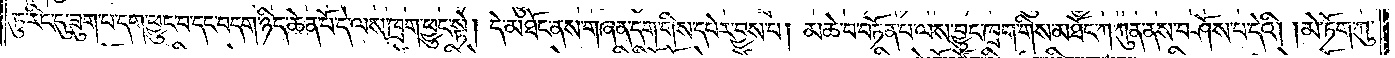ཏུ་རིང་དུ་ཟུག་པ་དག་ཕྱུང་བ་དང་བདག་ཉིད་ཆེན་པོ་དེ་ལས་ཁྲག་ཕྱུང་སྟེ། དེ་མཐོང་ནས་གཞན་དག་གིས་དཔེར་བྱས་པ། མཆེ་བ་བཏོན་པ་ལས་བྱུང་ཁྲག་གིས་མཐོང་ཀ་ཀུན་ནས་བཤོས་པ་དེའི། །མེ་ཏོག་ཀུ་
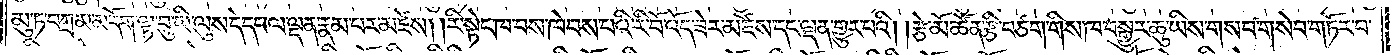མུ་ཏ་བཀྲམ་མདོག་ལྟ་བུ་ཡི་ལུས་དེ་དཔལ་ལྡན་རྣམ་པར་མཛེས། །རི་སྟེང་ཁ་བས་ཁེབས་པའི་རི་བོ་འོད་ཟེར་མཛེས་དང་ལྡན་གྱུར་པའི། །རྩེ་མོ་ཚོན་རྩི་བཙག་གིས་ཁ་བསྒྱུར་ཆུ་ཡིས་གསབ་གསེབ་གཏོར་བ་
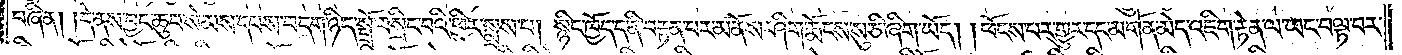བཞིན། །དེ་ནས་བྱང་ཆུབ་སེམས་དཔས་བདག་ཉིད་སྤྲོ་བསྲིང་བའི་ཕྱིར་སྨྲས་པ། སྙིང་ཁྱོད་ད་ནི་བརྟན་པར་མནོས་ཤིག་རྨོངས་སུ་ཅི་ཞིག་ཡོད། །ཕོངས་པར་གྱུར་དང་མགོན་མེད་འཇིག་རྟེན་ལ་ཡང་བལྟ་བར་
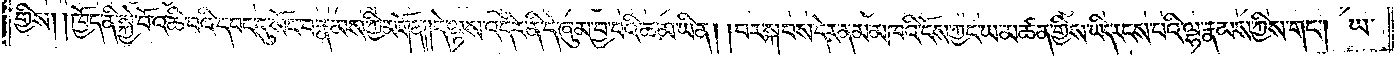གྱིས། །ཁྱོད་ནི་སྐྱེ་བོ་འཆི་བའི་དབང་དུ་སོང་བ་རྣམས་ཀྱི་མགོན། །དེ་ལྟས་འདིར་ནི་དེ་ཞུམ་བྱ་བའི་ཆ་མ་ཡིན། །བར་སྐབས་དེར་ནམ་མཁའི་ངོས་ཀྱང་ཡ་མཚན་གྱིས་ཡིད་རངས་པའི་ལྷ་རྣམས་ཀྱིས་གང༌། ཡ་
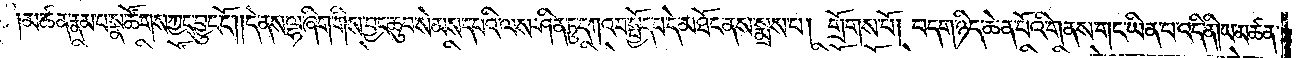མཚན་རྣམ་པ་སྣ་ཚོགས་ཀྱང་བྱུང་ངོ༌། །དེ་ནས་ལྷ་ཞིག་གིས་བྱང་ཆུབ་སེམས་དཔའི་ལས་ཤིན་ཏུ་དཀའ་བ་སྤྱོད་པ་དེ་མཐོང་ནས་སྨྲས་པ། གྲོགས་པོ། བདག་ཉིད་ཆེན་པོའི་གནས་གང་ཡིན་པ་འདི་ནི། ཡ་མཚན་
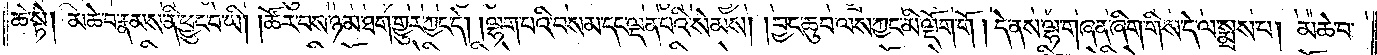ཆེ་སྟེ། མཆེ་བ་རྣམས་ནི་ཕྱུང་བ་ཡི། །ཚོར་བས་ཉམ་ཐག་གྱུར་ཀྱང་དེ། །ལྷག་པའི་བསམ་དང་ལྡན་པའི་སེམས། །བྱང་ཆུབ་ལས་ཀྱང་མི་ལྡོག་གོ །དེ་ནས་ལྷ་གཞན་ཞིག་གིས་དེ་ལ་སྨྲས་པ། མཆེ་བ་
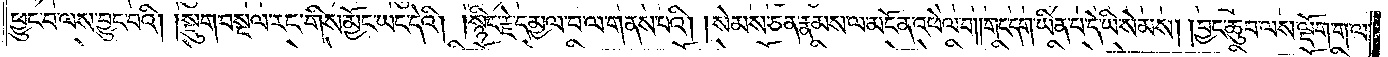ཕྱུང་བ་ལས་བྱུང་བའི། །སྡུག་བསྔལ་རང་གིས་མྱོང་ཡང་དེའི། །སྙིང་རྗེ་དམྱལ་བ་ལ་གནས་པའི། །སེམས་ཅན་རྣམས་ལ་མངོན་འཕེལ་བ། །གང་དག་ཡིན་པ་དེ་ཡི་སེམས། །བྱང་ཆུབ་ལས་ལྡོག་ག་ལ་
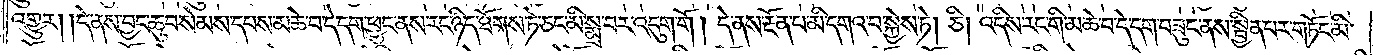འགྱུར། །དེ་ནས་བྱང་ཆུབ་སེམས་དཔས་མཆེ་བ་དེ་དག་ཕྱུང་ནས་རང་ཉིད་ཐོགས་ཏེ་ཅང་མི་སྨྲ་བར་འདུག་གོ། དེ་ནས་རྔོན་པ་མི་དགའ་བ་སྐྱེས་ཏེ། ཅི། འདིས་རང་གི་མཆེ་བ་དེ་དག་བཟུང་ནས་སྦྱིན་པར་གཏོང་མི་
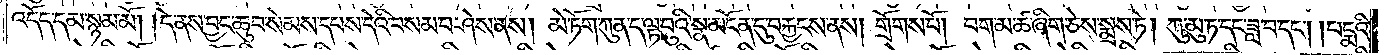འདོད་དམ་སྙམ་མོ། །དེ་ནས་བྱང་ཆུབ་སེམས་དཔས་དེའི་བསམ་པ་ཤེས་ནས། མེ་ཏོག་ཀུན་ད་ལྟ་བུའི་སྣ་མངོན་དུ་བརྐྱངས་ནས། གྲོགས་པོ། བག་མ་ཚ་ཞིག་ཅེས་སྨྲས་ཏེ། ཀུ་མུ་ཏ་དང་ཟླ་བ་དང༌། པདྨའི་
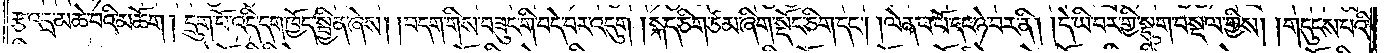རྩ་འདྲ་མཆེ་བའི་མཆོག། དྲུག་པོ་འདི་དག་ཁྱོད་སྦྱིན་ཞེས། །བདག་གིས་བཟུང་གི་བདེ་བར་འདུག །སྐད་ཅིག་ཙམ་ཞིག་སྡོང་ཅིག་དང༌། །ལེན་པ་པོ་དང་ཉེ་བར་ནི། །དེ་ཡི་བར་གྱི་སྡུག་བསྔལ་གྱིས། །གདུངས་པའི་
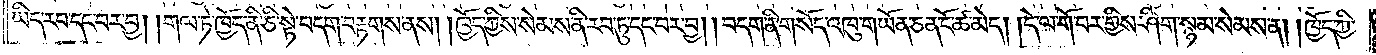ཡིད་རབ་དང་བར་བྱ། །གལ་ཏེ་ཁྱོད་ནི་ཅི་སྟེ་བདག་བརྟགས་ནས། །ཁྱོད་ཀྱིས་སེམས་ནི་རབ་ཏུ་དང་བར་བྱ། །བདག་ནི་གསོད་འཁུ་གཡོན་ཅན་ངོ་ཚ་མེད། །དེ་ལ་གོ་བར་གྱིས་ཤིག་སྙམ་སེམས་ན། །ཁྱོད་ཀྱི་
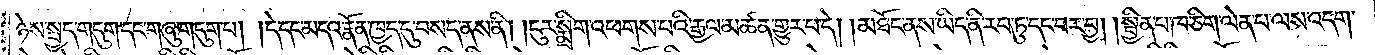ཉེས་སྤྱད་གདུག་དང་གཞུ་གདུག་པ། །དེ་དང་མདའ་རྣོན་ཁྱད་དུ་བསད་ནས་ནི། །ངུར་སྨྲིག་འཕགས་པའི་རྒྱལ་མཚན་གྱུར་པ་དེ། །མཐོང་ནས་ཡིད་ནི་རབ་ཏུ་དང་བར་བྱ། །སྦྱིན་པ་ཁ་ཅིག་ལེན་པ་ལས་འདག་
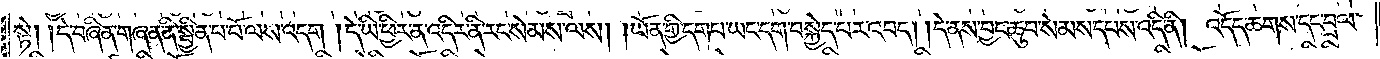སྟེ། །དེ་བཞིན་གཞན་ནི་སྦྱིན་པ་པོ་ལས་འདག །དེ་ཡི་ཕྱིར་ན་འདིར་ནི་རང་སེམས་ལས། །ཡོན་གྱི་དག་པ་ཡང་དག་བསྐྱེད་པར་འབད། །དེ་ནས་བྱང་ཆུབ་སེམས་དཔས་འདི་ནི། འདོད་ཆགས་དང་བྲལ་
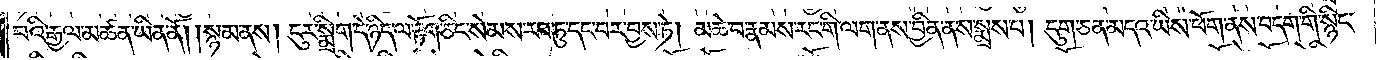བའི་རྒྱལ་མཚན་ཡིན་ནོ། །སྙམ་ནས། ངུར་སྨྲིག་དེ་ཉིད་ལ་རྟོག་ཅིང་སེམས་རབ་ཏུ་དང་བར་བྱས་ཏེ། མཆེ་བ་རྣམས་རང་གི་ལག་ནས་བྱིན་ནས་སྨྲས་པ། དུག་ཅན་མདའ་ཡིས་ཕོག་ནས་བདག་གི་སྙིང་
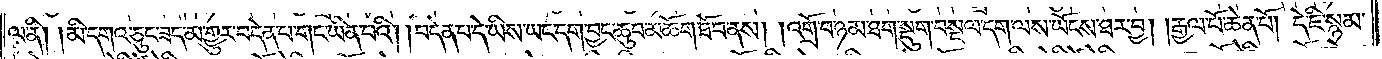ལ་ནི། །མི་དགའ་ཅུང་ཟད་མ་གྱུར་བདེན་པ་གང་ཡིན་པའི། །བདེན་པ་དེ་ཡིས་ཡང་དག་བྱང་ཆུབ་མཆོག་ཐོབ་ནས། །འགྲོ་བ་ཉམ་ཐག་སྡུག་བསྔལ་དག་ལས་ཡོངས་ཐར་བྱ། །རྒྱལ་པོ་ཆེན་པོ། དེ་ཇི་སྙམ་
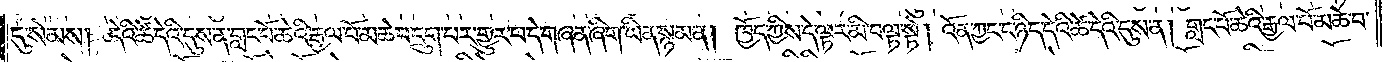དུ་སེམས། དེའི་ཚེ་དེའི་དུས་ན་གླང་པོ་ཆེའི་རྒྱལ་པོ་མཆེ་བ་དྲུག་པར་གྱུར་པ་དེ་གཞན་ཞིག་ཡིན་སྙམ་ན། ཁྱོད་ཀྱིས་དེ་ལྟར་མི་བལྟ་སྟེ། འོན་ཀྱང་ང་ཉིད་དེའི་ཚེ་དེའི་དུས་ན། གླང་པོ་ཆེའི་རྒྱལ་པོ་མཆེ་བ་
